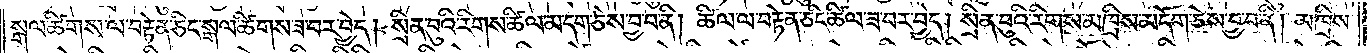སྒལ་ཚིགས་ལ་བརྟེན་ཅིང་སྒལ་ཚིགས་ཟ་བར་བྱེད། སྲིན་བུའི་རིགས་ཚིལ་མ་དག་ཅེས་བྱ་བ་ནི། ཚིལ་ལ་བརྟེན་ཅིང་ཚིལ་ཟ་བར་བྱེད། སྲིན་བུའི་རིགས་མཁྲིས་མདོག་ཅེས་བྱ་བ་ནི། མཁྲིས་
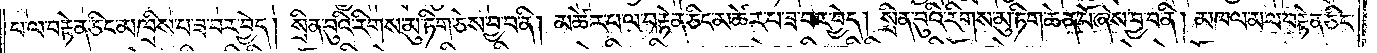པ་ལ་བརྟེན་ཅིང་མཁྲིས་པ་ཟ་བར་བྱེད། སྲིན་བུའི་རིགས་མུ་ཏིག་ཅེས་བྱ་བ་ནི། མཚེར་པ་ལ་བརྟེན་ཅིང་མཚེར་པ་ཟ་བར་བྱེད། སྲིན་བུའི་རིགས་མུ་ཏིག་ཆེན་པོ་ཞེས་བྱ་བ་ནི། མཁལ་མ་ལ་བརྟེན་ཅིང་
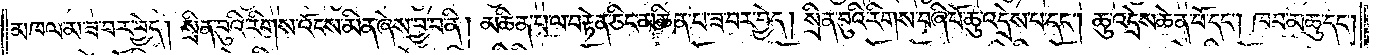མཁལ་མ་ཟ་བར་བྱེད། སྲིན་བུའི་རིགས་འོངས་མིན་ཞེས་བྱ་བ་ནི། མཆིན་པ་ལ་བརྟེན་ཅིང་མཆིན་པ་ཟ་བར་བྱེད། སྲིན་བུའི་རིགས་བཞི་པོ་ཆུ་འདྲེས་པ་དང༌། ཆུ་འདྲེས་པ་ཆེན་པོ་དང༌། ཁབ་མཆུ་དང༌།
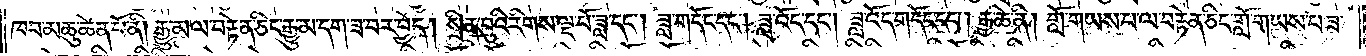ཁབ་མཆུ་ཆེན་པོ་ནི། རྒྱུ་མ་ལ་བརྟེན་ཅིང་རྒྱུ་མ་དག་ཟ་བར་བྱེད། སྲིན་བུའི་རིགས་ལྔ་པོ་ཟླ་དང༌། ཟླ་གདོང་དང༌། ཟླ་འོད་དང༌། ཟླ་འོད་གདོང་དང༌། རྒྱ་ཆེ་ནི། གློ་གཡས་པ་ལ་བརྟེན་ཅིང་གློ་གཡས་པ་ཟ་
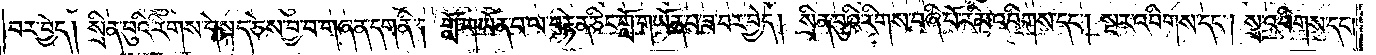བར་བྱེད། སྲིན་བུའི་རིགས་དེ་སྐད་ཅེས་བྱ་བ་གཞན་དག་ནི། གློ་གཡོན་པ་ལ་བརྟེན་ཅིང་གློ་གཡོན་པ་ཟ་བར་བྱེད། སྲིན་བུའི་རིགས་བཞི་པོ་རིམ་འབིགས་དང༌། སྔར་འབིགས་དང༌། སྲ་འབིགས་དང༌།
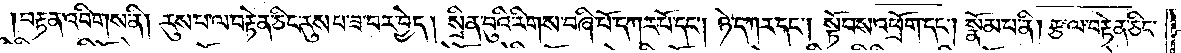བརྟན་འབིགས་ནི། རུས་པ་ལ་བརྟེན་ཅིང་རུས་པ་ཟ་བར་བྱེད། སྲིན་བུའི་རིགས་བཞི་པོ་དཀར་པོ་དང༌། ཉེ་དཀར་དང༌། སྟོབས་འཕྲོག་དང༌། སྣོམ་པ་ནི། རྩ་ལ་བརྟེན་ཅིང་
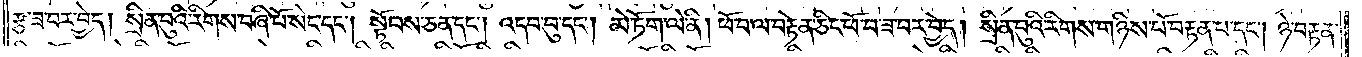རྩ་ཟ་བར་བྱེད། སྲིན་བུའི་རིགས་བཞི་པོ་སེང་དང༌། སྟོབས་ཅན་དང༌། འདབ་བུ་དང༌། མེ་ཏོག་ལེ་ནི། ཕོ་བ་ལ་བརྟེན་ཅིང་ཕོ་བ་ཟ་བར་བྱེད། སྲིན་བུའི་རིགས་གཉིས་པོ་བརྟན་པ་དང༌། ཉེ་བརྟན་
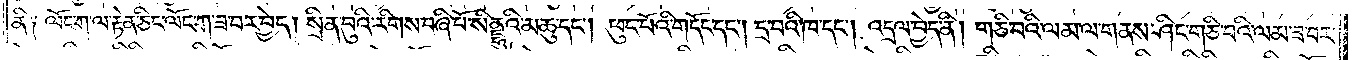ནི༑ ལོང་ག་ལ་རྟེན་ཅིང་ལོང་ཀ་ཟ་བར་བྱེད། སྲིན་བུའི་རིགས་བཞི་པོ་སིནྡྷུའི་མཆུ་དང༌། ཕུང་པོའི་གདོང་དང༌། དྲ་བའི་ཁ་དང༌། འདྲལ་བྱེད་ནི། གཅི་བའི་ལམ་ལ་གནས་ཤིང་གཅི་བའི་ལམ་ཟ་བར་
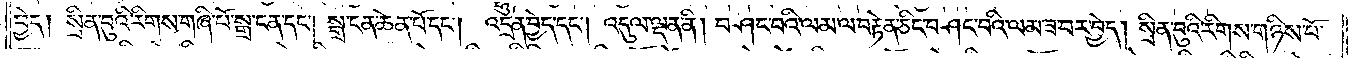བྱེད། སྲིན་བུའི་རིགས་གཞི་པོ་སྒྲ་ངན་དང༌། སྒྲ་ངན་ཆེན་པོ་དང༌། འདྲེན་བྱེད་དང༌། འདུལ་ལྡན་ནི། བཤང་བའི་ལམ་ལ་བརྟེན་ཅིང་བཤང་བའི་ལམ་ཟ་བར་བྱེད། སྲིན་བུའི་རིགས་གཉིས་པོ་
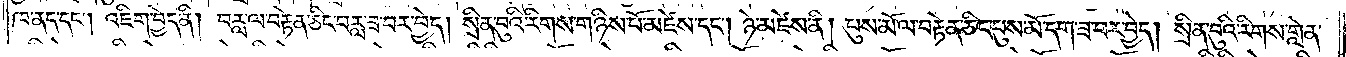ཁ་ནད་དང༌། འཇིག་བྱེད་ནི། བརླ་ལ་བརྟེན་ཅིང་བརླ་ཟ་བར་བྱེད། སྲིན་བུའི་རིགས་གཉིས་པོ་མཛེས་དང༌། ཉེ་མཛེས་ནི། པུས་མོ་ལ་བརྟེན་ཅིང་པུས་མོ་དག་ཟ་བར་བྱེད། སྲིན་བུའི་རིགས་གླེན་
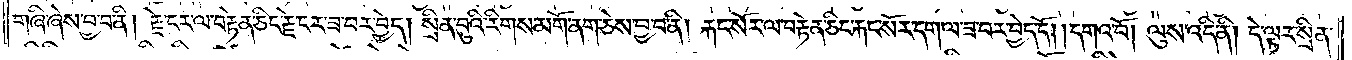གཞི་ཞེས་བྱ་བ་ནི། རྗེ་ངར་ལ་བརྟེན་ཅིང་རྗེ་ངར་ཟ་བར་བྱེད། སྲིན་བུའི་རིགས་མགོ་ནག་ཅེས་བྱ་བ་ནི། རྐང་སོར་ལ་བརྟེན་ཅིང་རྐང་སོར་དག་ལ་ཟ་བར་བྱེད་དོ། །དགའ་བོ། ལུས་འདི་ནི། དེ་ལྟར་སྲིན་
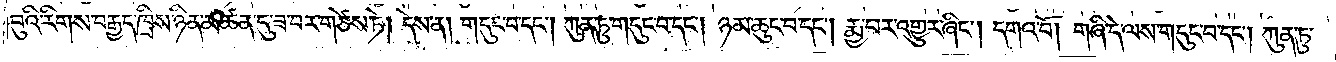བུའི་རིགས་བརྒྱད་ཁྲིས་ཉིན་མཚན་དུ་ཟ་བར་གཙེས་ཏེ། དེས་ན། གདུང་བ་དང༌། ཀུན་ཏུ་གདུང་བ་དང༌། ཉམ་ཆུང་བ་དང༌། རྨྱ་བར་འགྱུར་ཞིང༌། དགའ་བོ། གཞི་དེ་ལས་གདུང་བ་དང༌། ཀུན་ཏུ་
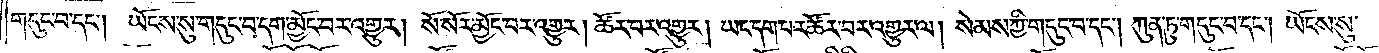གདུང་བ་དང༌། ཡོངས་སུ་གདུང་བ་དག་མྱོང་བར་འགྱུར། སོ་སོར་མྱོང་བར་འགྱུར། ཚོར་བར་འགྱུར། ཡང་དག་པར་ཚོར་བར་འགྱུར་ལ། སེམས་ཀྱི་གདུང་བ་དང༌། ཀུན་ཏུ་གདུང་བ་དང༌། ཡོངས་སུ་
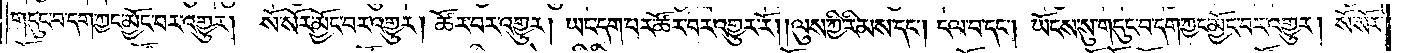གདུང་བ་དག་ཀྱང་མྱོང་བར་འགྱུར། སོ་སོར་མྱོང་བར་འགྱུར། ཚོར་བར་འགྱུར། ཡང་དག་པར་ཚོར་བར་འགྱུར་རོ། །ལུས་ཀྱི་རིམས་དང༌། ངལ་བ་དང༌། ཡོངས་སུ་གདུང་བ་དག་ཀྱང་མྱོང་བར་འགྱུར། སོ་སོར་
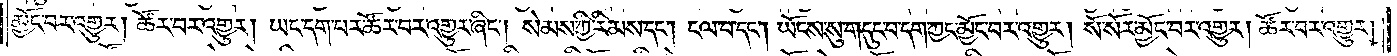མྱོང་བར་འགྱུར། ཚོར་བར་འགྱུར། ཡང་དག་པར་ཚོར་བར་འགྱུར་ཞིང༌། སེམས་ཀྱི་རིམས་དང༌། ངལ་བ་དང༌། ཡོངས་སུ་གདུང་བ་དག་ཀྱང་མྱོང་བར་འགྱུར། སོ་སོར་མྱོང་བར་འགྱུར། ཚོར་བར་འགྱུར།
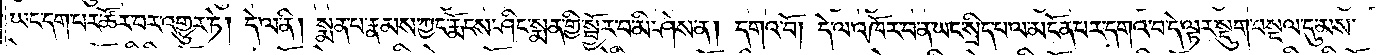ཡང་དག་པར་ཚོར་བར་འགྱུར་ཏེ། དེ་ལ་ནི། སྨན་པ་རྣམས་ཀྱང་རྨོངས་ཤིང་སྨན་གྱི་སྦྱོར་བ་མི་ཤེས་ན། དགའ་བོ། དེ་ལ་འཁོར་བ་ན་ཡང་སྲིད་པ་ལ་མངོན་པར་དགའ་བ་དེ་ལྟར་སྡུག་བསྔལ་དུ་མས་
